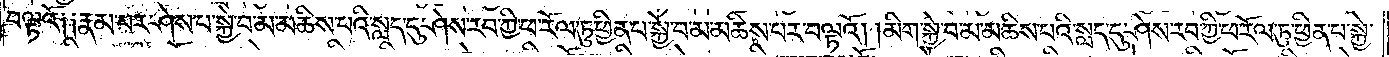བལྟའོ༑ ༑རྣམ་པར་ཤེས་པ་སྐྱེ་བ་མ་མཆིས་པའི་སླད་དུ་ཤེས་རབ་ཀྱི་ཕ་རོལ་ཏུ་ཕྱིན་པ་སྐྱེ་བ་མ་མཆིས་པར་བལྟའོ། །མིག་སྐྱེ་བ་མཆིས་པའི་སླད་དུ་ཤེས་རབ་ཀྱི་ཕ་རོལ་ཏུ་ཕྱིན་པ་སྐྱེ་
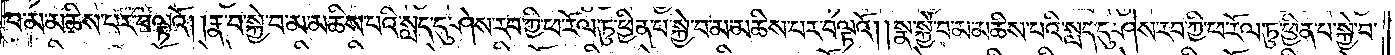བ་མ་མཆིས་པར་བལྟའོ། །རྣ་བ་སྐྱེ་བ་མ་མཆིས་པའི་སླད་དུ་ཤེས་རབ་ཀྱི་ཕ་རོལ་ཏུ་ཕྱིན་པ་སྐྱེ་བ་མ་མཆིས་པར་བལྟའོ། །སྣ་སྐྱེ་བ་མ་མཆིས་པའི་སླད་དུ་ཤེས་རབ་ཀྱི་ཕ་རོལ་ཏུ་ཕྱིན་པ་སྐྱེ་བ་
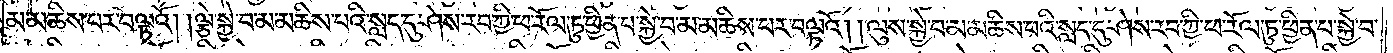མ་མཆིས་པར་བལྟའོ། །ལྕེ་སྐྱེ་བ་མ་མཆིས་པའི་སླད་དུ་ཤེས་རབ་ཀྱི་ཕ་རོལ་ཏུ་ཕྱིན་པ་སྐྱེ་བ་མ་མཆིས་པར་བལྟའོ། །ལུས་སྐྱེ་བ་མ་མཆིས་པའི་སླད་དུ་ཤེས་རབ་ཀྱི་ཕ་རོལ་ཏུ་ཕྱིན་པ་སྐྱེ་བ་
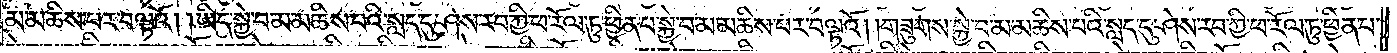མ་མཆིས་པར་བལྟའོ། །ཡིད་སྐྱེ་བ་མ་མཆིས་པའི་སླད་དུ་ཤེས་རབ་ཀྱི་ཕ་རོལ་ཏུ་ཕྱིན་པ་སྐྱེ་བ་མ་མཆིས་པར་བལྟའོ། །གཟུགས་སྐྱེ་བ་མ་མཆིས་པའི་སླད་དུ་ཤེས་རབ་ཀྱི་ཕ་རོལ་ཏུ་ཕྱིན་པ་
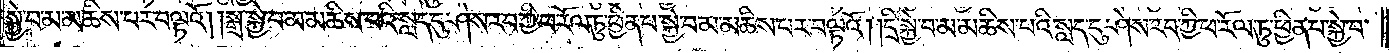སྐྱེ་བ་མ་མཆིས་པར་བལྟའོ། །སྒྲ་སྐྱེ་བ་མ་མཆིས་པའི་སླད་དུ་ཤེས་རབ་ཀྱི་ཕ་རོལ་ཏུ་ཕྱིན་པ་སྐྱེ་བ་མ་མཆིས་པར་བལྟའོ། །དྲི་སྐྱེ་བ་མ་མཆིས་པའི་སླད་དུ་ཤེས་རབ་ཀྱི་ཕ་རོལ་ཏུ་ཕྱིན་པ་སྐྱེ་བ་
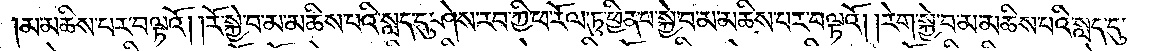མ་མཆིས་པར་བལྟའོ། །རོ་སྐྱེ་བ་མ་མཆིས་པའི་སླད་དུ་ཤེས་རབ་ཀྱི་ཕ་རོལ་ཏུ་ཕྱིན་པ་སྐྱེ་བ་མ་མཆིས་པར་བལྟའོ། །རེག་སྐྱེ་བ་མ་མཆིས་པའི་སླད་དུ་
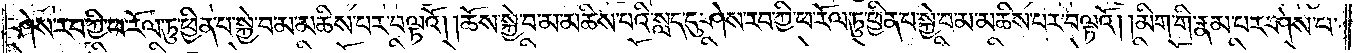ཤེས་རབ་ཀྱི་ཕ་རོལ་ཏུ་ཕྱིན་པ་སྐྱེ་བ་མ་མཆིས་པར་བལྟའོ། །ཆོས་སྐྱེ་བ་མ་མཆིས་པའི་སླད་དུ་ཤེས་རབ་ཀྱི་ཕ་རོལ་ཏུ་ཕྱིན་པ་སྐྱེ་བ་མ་མཆིས་པར་བལྟའོ། །མིག་གི་རྣམ་པར་ཤེས་པ་
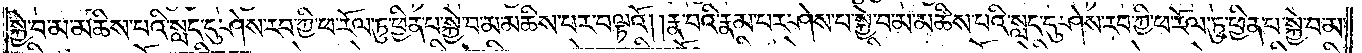སྐྱེ་བ་མ་མཆིས་པའི་སླད་དུ་ཤེས་རབ་ཀྱི་ཕ་རོལ་ཏུ་ཕྱིན་པ་སྐྱེ་བ་མ་མཆིས་པར་བལྟའོ། །རྣ་བའི་རྣམ་པར་ཤེས་པ་སྐྱེ་བ་མ་མཆིས་པའི་སླད་དུ་ཤེས་རབ་ཀྱི་ཕ་རོལ་ཏུ་ཕྱིན་པ་སྐྱེ་བ་མ་
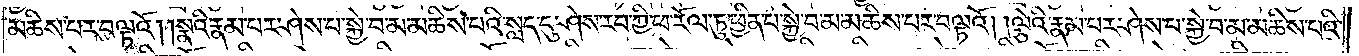མཆིས་པར་བལྟའོ། །སྣའི་རྣམ་པར་ཤེས་པ་སྐྱེ་བ་མ་མཆིས་པའི་སླད་དུ་ཤེས་རབ་ཀྱི་ཕ་རོལ་ཏུ་ཕྱིན་པ་སྐྱེ་བ་མ་མཆིས་པར་བལྟའོ། །ལྕེའི་རྣམ་པར་ཤེས་པ་སྐྱེ་བ་མ་མཆིས་པའི་
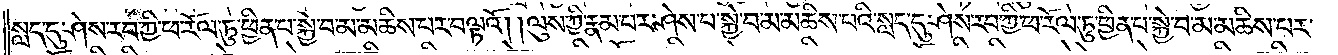སླད་དུ་ཤེས་རབ་ཀྱི་ཕ་རོལ་ཏུ་ཕྱིན་པ་སྐྱེ་བ་མ་མཆིས་པར་བལྟའོ། །ལུས་ཀྱི་རྣམ་པར་ཤེས་པ་སྐྱེ་བ་མ་མཆིས་པའི་སླད་དུ་ཤེས་རབ་ཀྱི་ཕ་རོལ་ཏུ་ཕྱིན་པ་སྐྱེ་བ་མ་མཆིས་པར་
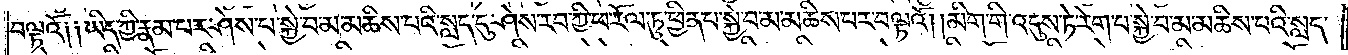བལྟའོ༑ ༑ཡིད་ཀྱི་རྣམ་པར་ཤེས་པ་སྐྱེ་བ་མ་མཆིས་པའི་སླད་དུ་ཤེས་རབ་ཀྱི་ཕ་རོལ་ཏུ་ཕྱིན་པ་སྐྱེ་བ་མ་མཆིས་པར་བལྟའོ། །མིག་གི་འདུས་ཏེ་རེག་པ་སྐྱེ་བ་མ་མཆིས་པའི་སླད་
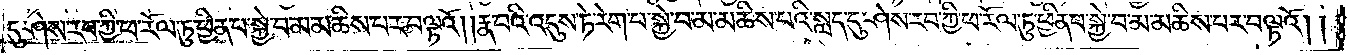དུ་ཤེས་རབ་ཀྱི་ཕ་རོལ་ཏུ་ཕྱིན་པ་སྐྱེ་བ་མ་མཆིས་པར་བལྟའོ། །རྣ་བའི་འདུས་ཏེ་རེག་པ་སྐྱེ་བ་མ་མཆིས་པའི་སླད་དུ་ཤེས་རབ་ཀྱི་ཕ་རོལ་ཏུ་ཕྱིན་པ་སྐྱེ་བ་མ་མཆིས་པར་བལྟའོ། །
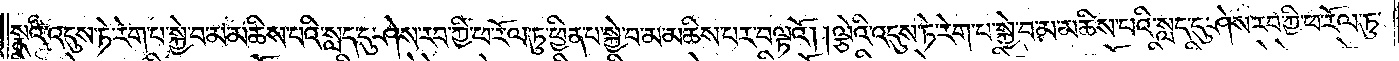སྣའི་འདུས་ཏེ་རེག་པ་སྐྱེ་བ་མ་མཆིས་པའི་སླད་དུ་ཤེས་རབ་ཀྱི་ཕ་རོལ་ཏུ་ཕྱིན་པ་སྐྱེ་བ་མ་མཆིས་པར་བལྟའོ། །ལྕེའི་འདུས་ཏེ་རེག་པ་སྐྱེ་བ་མ་མཆིས་པའི་སླད་དུ་ཤེས་རབ་ཀྱི་ཕ་རོལ་ཏུ་
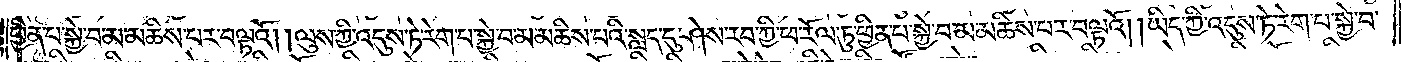ཕྱིན་པ་སྐྱེ་བ་མ་མཆིས་པར་བལྟའོ། །ལུས་ཀྱི་འདུས་ཏེ་རེག་པ་སྐྱེ་བ་མ་མཆིས་པའི་སླད་དུ་ཤེས་རབ་ཀྱི་ཕ་རོལ་ཏུ་ཕྱིན་པ་སྐྱེ་བ་མ་མཆིས་པར་བལྟའོ། །ཡིད་ཀྱི་འདུས་ཏེ་རེག་པ་སྐྱེ་བ་
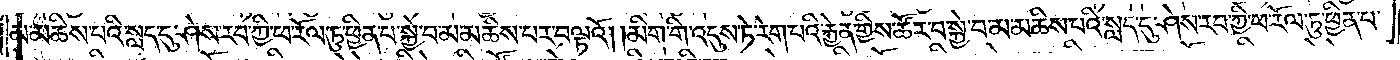མ་མཆིས་པའི་སླད་དུ་ཤེས་རབ་ཀྱི་ཕ་རོལ་ཏུ་ཕྱིན་པ་སྐྱེ་བ་མ་མཆིས་པར་བལྟའོ། །མིག་གི་འདུས་ཏེ་རེག་པའི་རྐྱེན་གྱིས་ཚོར་བ་སྐྱེ་བ་མ་མཆིས་པའི་སླད་དུ་ཤེས་རབ་ཀྱི་ཕ་རོལ་ཏུ་ཕྱིན་པ་
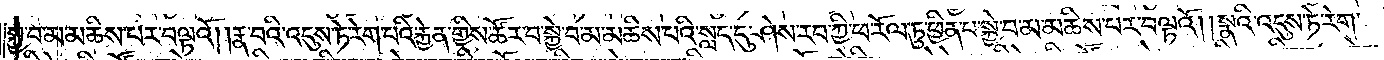སྐྱེ་བ་མ་མཆིས་པར་བལྟའོ། །རྣ་བའི་འདུས་ཏེ་རེག་པའི་རྐྱེན་གྱིས་ཚོར་བ་སྐྱེ་བ་མ་མཆིས་པའི་སླད་དུ་ཤེས་རབ་ཀྱི་ཕ་རོལ་ཏུ་ཕྱིན་པ་སྐྱེ་བ་མ་མཆིས་པར་བལྟའོ། །སྣའི་འདུས་ཏེ་རེག་
